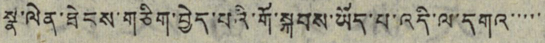སྣ་ལེན་ཐེངས་གཅིག་བྱེད་པའི་གོ་སྐབས་ཡོད་པ་འདི་ལ་དགའ་་་་་
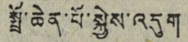སྤྲོ་ཆེན་པོ་སྐྱེས་འདུག
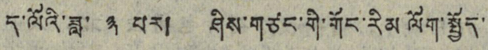ད་ལོའི་ཟླ་ ༣ པར། ཤིས་གཙང་གི་གོང་རིམ ལོག་སྤྱོད་
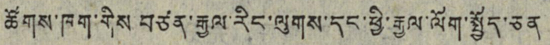ཚོགས་ཁག་གིས བཙན་རྒྱལ་རིང་ལུགས་དང་ཕྱི་རྒྱལ་ལོག་སྤྱོད་ཅན་
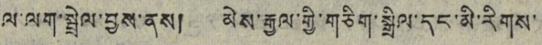ལ་ལག་སྦྲེལ་བྱས་ནས། མེས་རྒྱལ་གྱི་གཅིག་སྒྲིལ་དང་མི་རིགས་
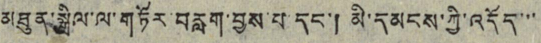མཐུན་སྒྲིལ་ལ་གཏོར་བརླག་བྱས་པ་དང་། མི་དམངས་ཀྱི་འདོད་་་
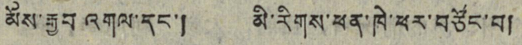མོས་རྒྱབ འགལ་དང་། མི་རིགས་ཕན་ཁེ་ཕར་བཙོང་བ།
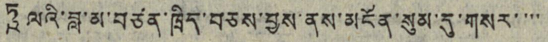ཏཱ ལའི་བླ་མ་བཙན་ཁྲིད་བཅས་བྱས་ནས་མངོན་སུམ་དུ་གསར་་་་
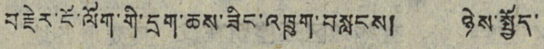བརྗེར་ངོ་ལོག་གི་དྲག་ཆས་ཟིང་འཁྲུག་བསླངས། ཉེས་སྤྱོད་
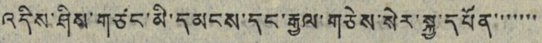འདིས་ཤིས་གཙང་མི་དམངས་དང་རྒྱལ་གཅེས་སེར་སྐྱ་དཔོན་་་་་་་
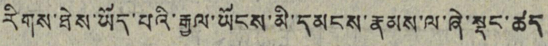རིགས་ཐེས་ཡོད་པའི་རྒྱལ་ཡོངས་མི་དམངས་རྣམས་ལ་ཞེ་སྡུང་ཚད་
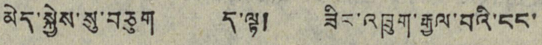མེད་སྐྱེས་སུ་བཅུག ད་ལྟ། ཟིང་འཁྲུག་རྒྱལ་བའི་ངང་
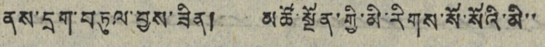ནས་དྲག་བཏུལ་བྱས་ཟིན། མཚོ་སྔོན་གྱི་མི་རིགས་སོ་སོའི་མི་་
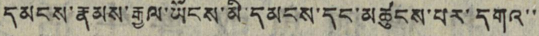དམངས་རྣམས་རྒྱལ་ཡོངས་མི་དམངས་དང་མཚུངས་པར་དགའ་་
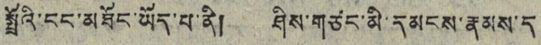སྤྲོའི་ངང་མཐོང་ཡོད་པ་ནི། ཤིས་གཙང་མི་དམངས་རྣམས་ད
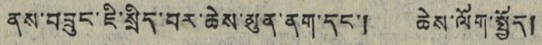ནས་བཟུང་ཇི་སྲིད་བར་ཆེས་མུན་ནག་དང་། ཆེས་ལོག་སྤྱོད།
